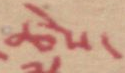ཚེས་
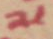༧
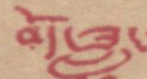བོད་ཟླ་
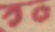༡༠
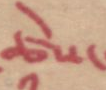ཚེས་
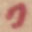༡
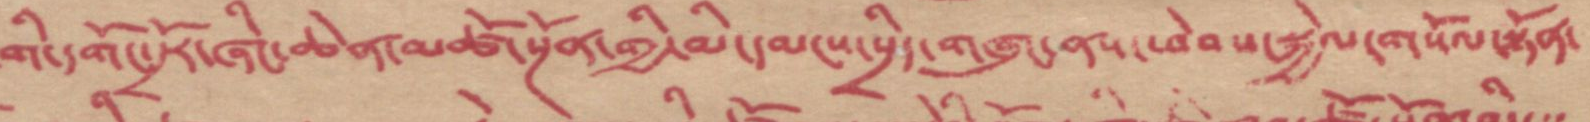གི་དགོང་དྲོར་ཞིང་ཆེན་མཚོ་སྔོན་གྱི་མི་དམངས་སྲིད་གཞུང་ནས་ཕེབས་སྐྱེལ་གསོལ་སྟོན་
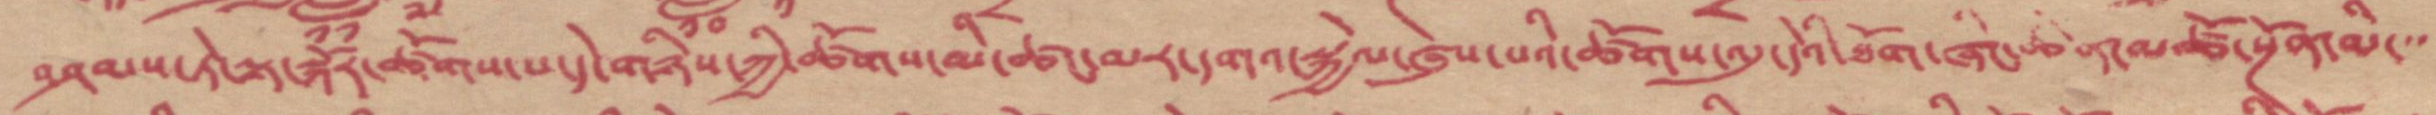བཤམས་ཏེ་ལྟར་སྐོར་ཚོགས་པ་དེ་གཉིས་ཀྱི་ཚོགས་མི་ཚང་མར་དགའ་སྐྱེལ་ཞུས་པའི་ཚོགས་ལུ་དེའི་ཐོག་ཞིང་ཆེན་མཚོ་སྔོན་མི་་་
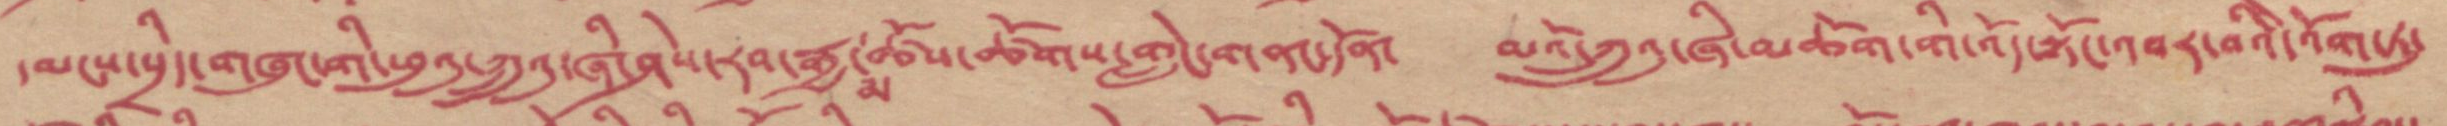དམངས་སྲིད་གཞུང་གི་ཕུའུ་ཀྲུའུ་ཞི་ཤེས་རབ་རྒྱ་མཚོས་ཚོགས་གླེང་གནང་དོན་ མའོ་ཀྲུའུ་ཞི་མཆོག་གི་འོད་སྟོང་འབར་བའི་འོག་ཏུ་
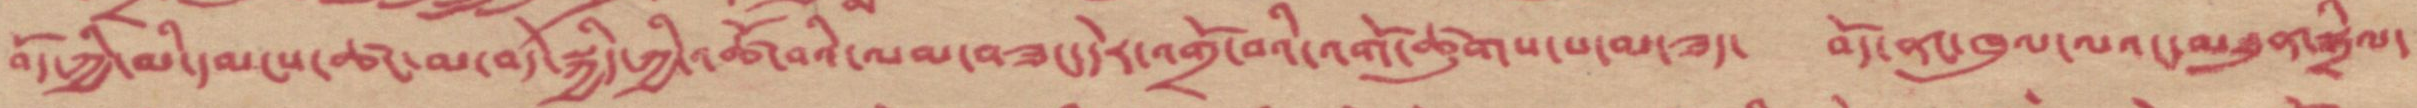བོད་ཀྱི་མི་དམངས་ཚང་མ་བདེ་སྐྱིད་ཀྱི་འཚོ་བའི་ལམ་བཟང་དེར་འགྲོ་བའི་འགོ་ཚུགས་པ་མ་ཟད་ བོད་ནང་ཁུལ་ལའང་མཐུན་སྒྲིལ་
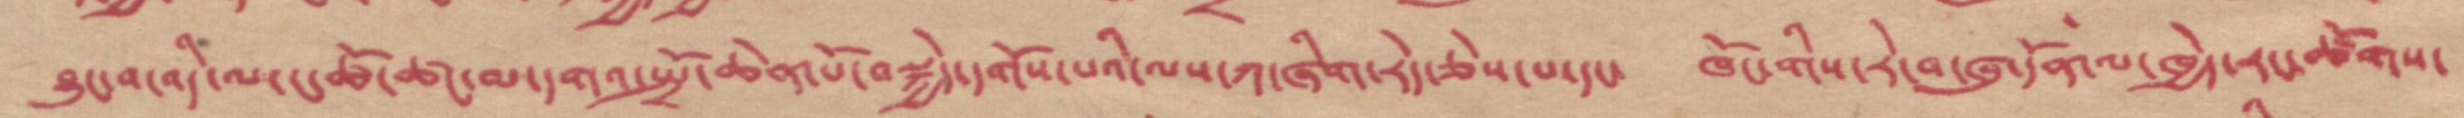བྱུང་བ་འདི་ལ་ང་ཚོ་ཚང་མ་དགའ་སྤྲོ་ཆེན་པོ་བསྐྱེད་དགོས་པའི་ལས་ཀ་ཞིག་རེད་ཅེས་པ་དང་ ཁོང་གིས་རེ་བ་ཞུ་དོན་ལ་ཁྱེད་རང་ཚོགས་
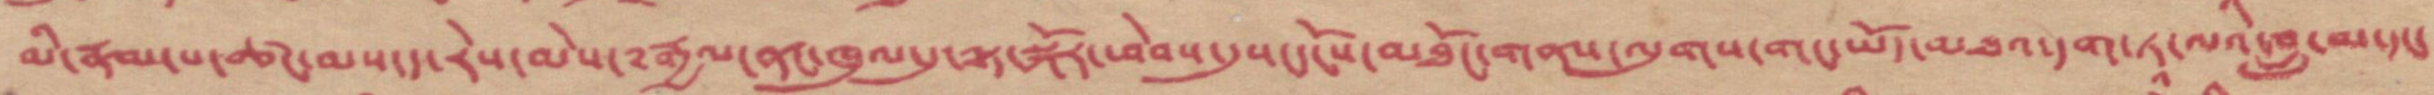མི་རྣམ་པ་ཚང་མས་ད་རེས་མེས་༸རྒྱལ་ནང་ཁུལ་དུ་ལྟ་སྐོར་ཕེབས་དུས་དངོས་མཐོང་གནས་ལུགས་གང་ཡོད་མཐའ་དག་ཏཱ་ལའི་བླ་མ་དང་
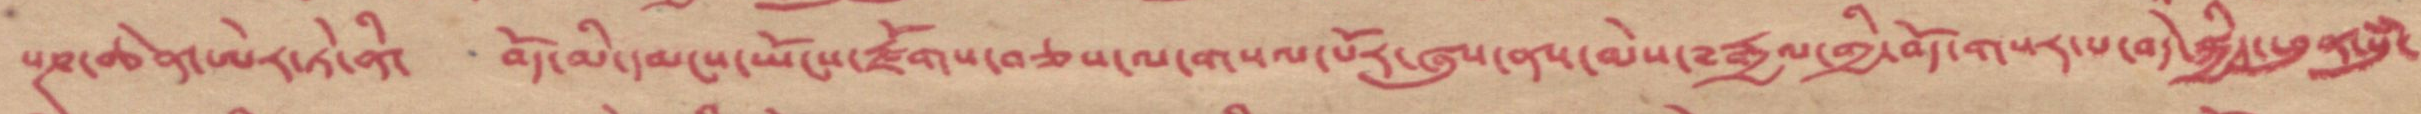པཎ་ཆེན་ཨེར་ཏེ་ནི་ བོད་མི་དམངས་ཡོངས་རྫོགས་བཅས་ལ་གསལ་པོར་ཞུས་ནས་མེས་༸རྒྱལ་གྱི་བོད་གསར་པ་བདེ་སྐྱིད་ཕུན་སུམ་
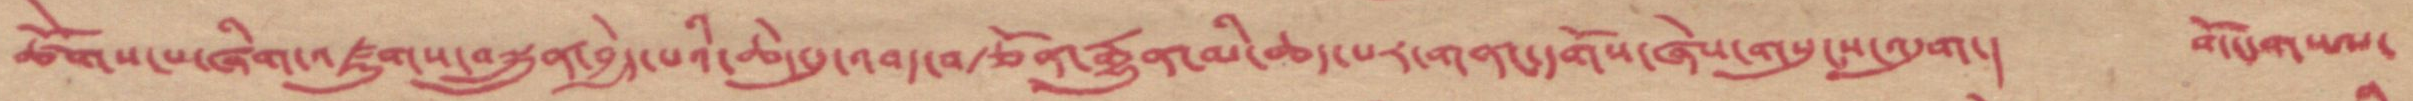ཚོགས་པ་ཞིག་འཛུགས་བསྐུན་བྱེད་པའི་ཆེད་དུ་འབད་བརྩོན་རྒྱུན་མི་ཆད་པར་གནང་དགོས་ཞེས་གསུངས་འདུག། གོང་གསལ་
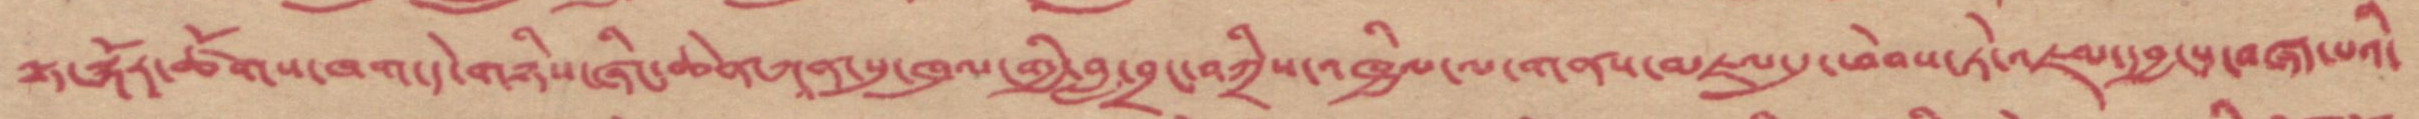ལྟ་སྐོར་ཚོགས་ཁག་དེ་གཉིས་ཞིང་ཆེན་ཀཱན་སུ་ཁུལ་གྱི་བླ་བྲང་བཀྲིས་འཁྱིལ་ལ་གནས་འཇལ་དུ་ཕེབས་ཏེ་འཇམ་དབྱངས་བཞད་པའི་
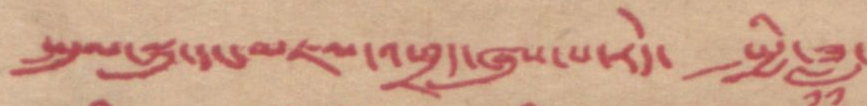སྤྲུལ་སྐུ་དང་མཇལ་འཕྲད་ཞུས་པ་རེད་ སྤྱི་ཟླ་
